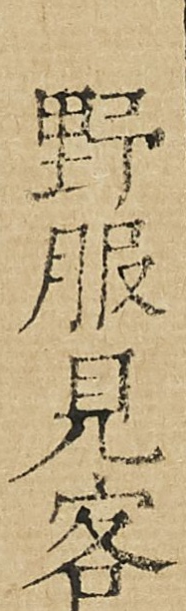野服見客
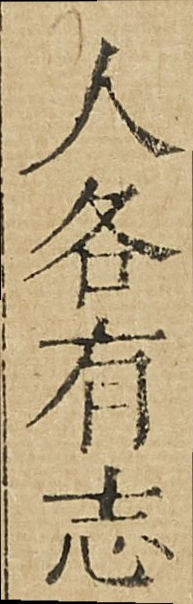人各有志
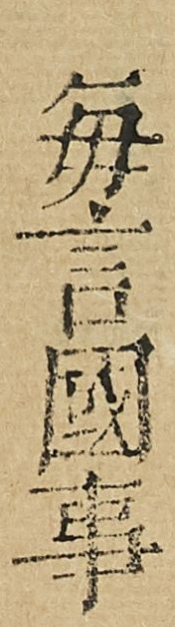每言國事
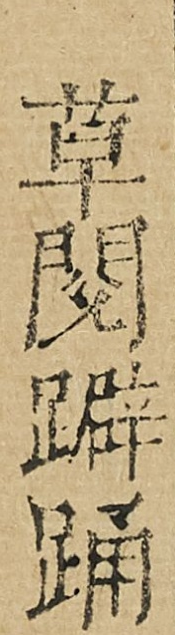草閲躃踊
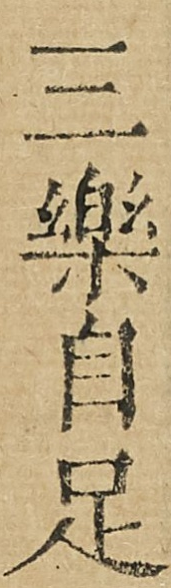三樂自足
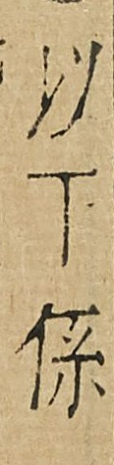以下係
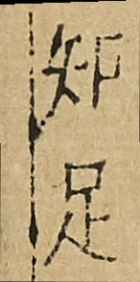知足
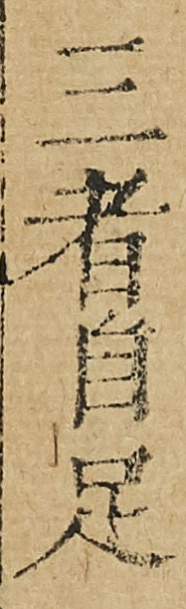三者自足
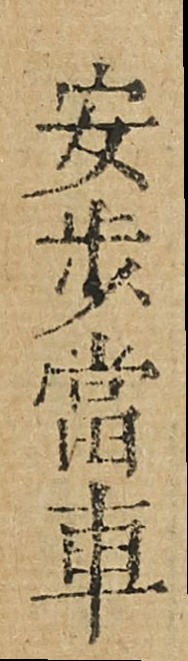安步當車
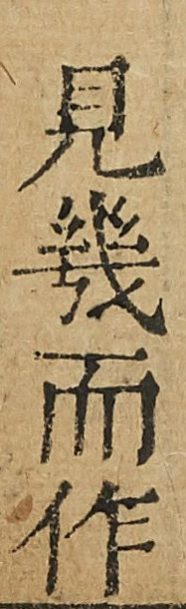見幾而作
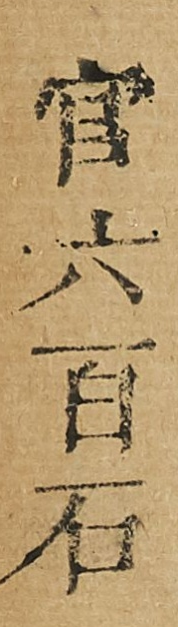官六百石
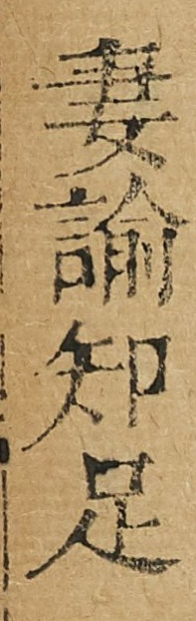妻諭知足
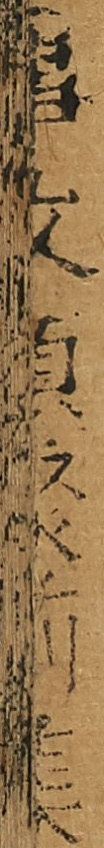事文類聚前集
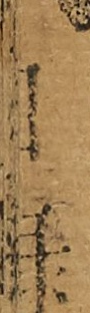目錄
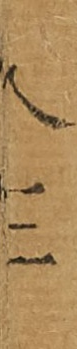八三
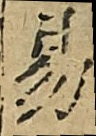易
